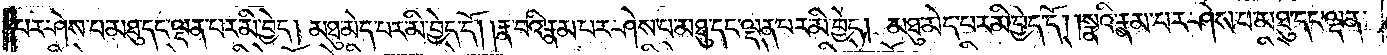པར་ཤེས་པ་མཐུ་དང་ལྡན་པར་མི་བྱེད། མཐུ་མེད་པར་མི་བྱེད་དོ། །རྣ་བའི་རྣམ་པར་ཤེས་པ་མཐུ་དང་ལྡན་པར་མི་བྱེད། མཐུ་མེད་པར་མི་བྱེད་དོ། །སྣའི་རྣམ་པར་ཤེས་པ་མཐུ་དང་ལྡན་
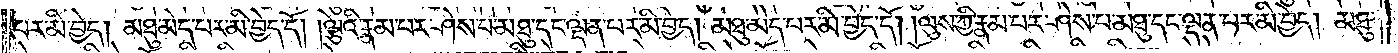པར་མི་བྱེད། མཐུ་མེད་པར་མི་བྱེད་དོ། །ལྕེའི་རྣམ་པར་ཤེས་པ་མཐུ་དང་ལྡན་པར་མི་བྱེད། མཐུ་མེད་པར་མི་བྱེད་དོ། །ལུས་ཀྱི་རྣམ་པར་ཤེས་པ་མཐུ་དང་ལྡན་པར་མི་བྱེད། མཐུ་
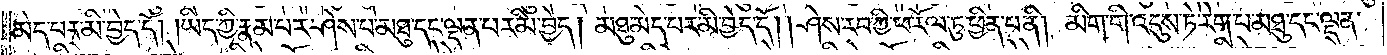མེད་པར་མི་བྱེད་དོ། །ཡིད་ཀྱི་རྣམ་པར་ཤེས་པ་མཐུ་དང་ལྡན་པར་མི་བྱེད། མཐུ་མེད་པར་མི་བྱེད་དོ། །ཤེས་རབ་ཀྱི་ཕ་རོལ་ཏུ་ཕྱིན་པ་ནི། མིག་གི་འདུས་ཏེ་རེག་པ་མཐུ་དང་ལྡན་
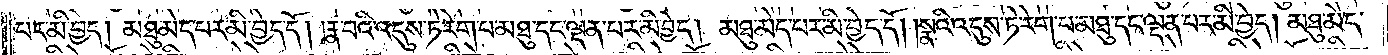པར་མི་བྱེད། མཐུ་མེད་པར་མི་བྱེད་དོ། །རྣ་བའི་འདུས་ཏེ་རེག་པ་མཐུ་དང་ལྡན་པར་མི་བྱེད། མཐུ་མེད་པར་མི་བྱེད་དོ། །སྣའི་འདུས་ཏེ་རེག་པ་མཐུ་དང་ལྡན་པར་མི་བྱེད། མཐུ་མེད་
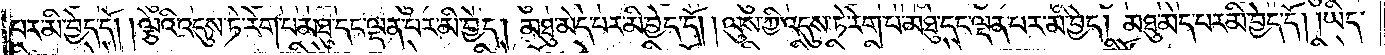པར་མི་བྱེད་དོ། །ལྕེའི་འདུས་ཏེ་རེག་པ་མཐུ་དང་ལྡན་པར་མི་བྱེད། མཐུ་མེད་པར་མི་བྱེད་དོ། །ལུས་ཀྱི་འདུས་ཏེ་རེག་པ་མཐུ་དང་ལྡན་པར་མི་བྱེད། མཐུ་མེད་པར་མི་བྱེད་དོ། །ཡིད་
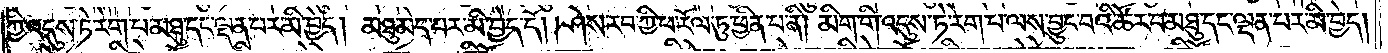ཀྱི་འདུས་ཏེ་རེག་པ་མཐུ་དང་ལྡན་པར་མི་བྱེད། མཐུ་མེད་པར་མི་བྱེད་དོ། །ཤེས་རབ་ཀྱི་ཕ་རོལ་ཏུ་ཕྱིན་པ་ནི། མིག་གི་འདུས་ཏེ་རེག་པ་ལས་བྱུང་བའི་ཚོར་བ་མཐུ་དང་ལྡན་པར་མི་བྱེད།
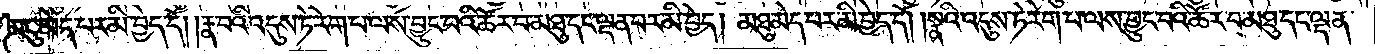མཐུ་མེད་པར་མི་བྱེད་དོ། །རྣ་བའི་འདུས་ཏེ་རེག་པ་ལས་བྱུང་བའི་ཚོར་བ་མཐུ་དང་ལྡན་པར་མི་བྱེད། མཐུ་མེད་པར་མི་བྱེད་དོ། །སྣའི་འདུས་ཏེ་རེག་པ་ལས་བྱུང་བའི་ཚོར་བ་མཐུ་དང་ལྡན་
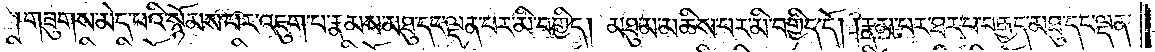གཟུགས་མེད་པའི་སྙོམས་པར་འཇུག་པ་རྣམས་མཐུ་དང་ལྡན་པར་མི་བགྱིད། མཐུ་མ་མཆིས་པར་མི་བགྱིད་དོ། རྣམ་པར་ཐར་པ་བརྒྱད་མཐུ་དང་ལྡན་
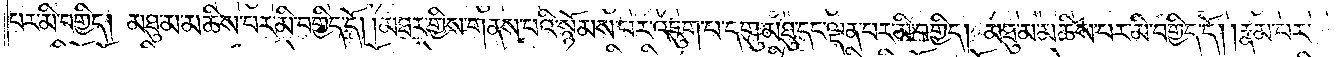པར་མོ་བགྱིད། མཐུ་མ་མཆིས་པར་མི་བགྱིད་དོ། མཐར་གྱི་གནས་པའི་སྙོམས་པར་འཇུག་པ་དགུ་མཐུ་དང་ལྡན་པར་མི་བགྱིད། མཐུ་མ་མཆིས་པར་མི་བགྱིད་དོ། །རྣམ་པར་
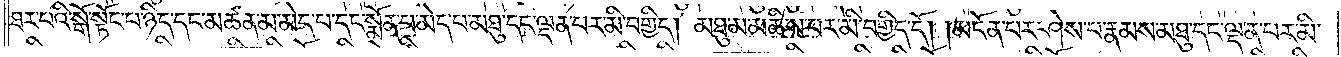ཐར་པའི་སྒོ་སྟོང་པ་ཉིད་དང་མཚན་མ་མེད་པ་དང་སྨོན་པ་མེད་པ་མཐུ་དང་ལྡན་པར་མི་བགྱིད། མཐུ་མ་མཆིས་པར་མི་བགྱིད་དོ། མངོན་པར་ཤེས་པ་རྣམས་མཐུ་དང་ལྡན་པར་མི་
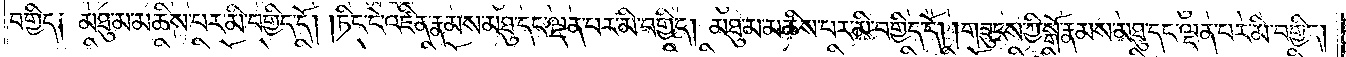བགྱིད༑ མཐུ་མ་མཆིས་པར་མི་བགྱིད་དོ། ཏིང་ངེ་འཛིན་རྣམས་མཐུ་དང་ལྡན་པར་མི་བགྱིད། མཐུ་མ་མཆིས་པར་མི་བགྱིད་དོ། གཟུངས་ཀྱི་སྒོ་རྣམས་མཐུ་དང་ལྡན་པར་མི་བགྱིད།
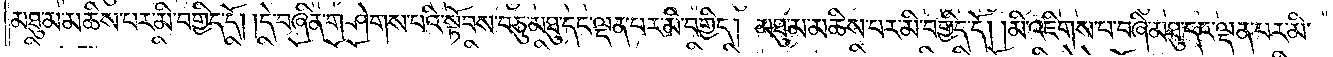མཐུ་མ་མཆིས་པར་མི་བགྱིད་དོ། དེ་བཞིན་གཤེགས་པའི་སྟོབས་བཅུ་མཐུ་དང་ལྡན་པར་མི་བགྱིད། མཐུ་མ་མཆིས་པེ་མི་བགྱིད་དོ། མི་འཇིགས་པ་བཞི་མཐུ་དང་ལྡན་པར་མི་
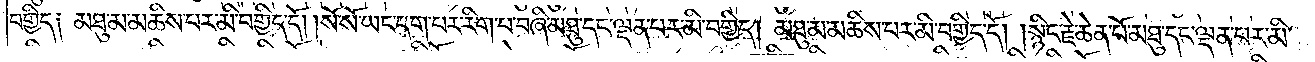བགྱིད༑ མཐུ་མ་མཆིས་པར་མི་བགྱིད་དོ། སོ་སོ་ཡང་དག་པར་རིག་པ་བཞི་མཐུ་དང་ལྡན་པར་མི་བགྱིད། མཐུ་མ་མཆིས་པར་མི་བགྱིད་དོ། སྙིང་རྗེ་ཆེན་པོ་མཐུ་དང་ལྡན་པར་མི་
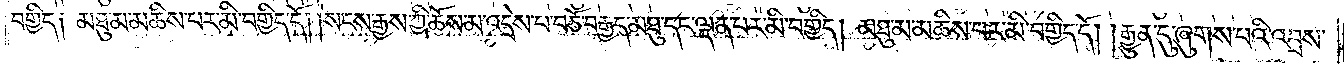བགྱིད༑ མཐུ་མ་མཆིས་པར་མི་བགྱིད་དོ། སངས་རྒྱས་ཀྱི་ཆོས་མ་འདྲེས་པ་བཅོ་བརྒྱད་མཐུ་དང་ལྡན་པར་མི་བགྱིད། མཐུ་མ་མཆིས་པར་མི་བགྱིད་དོ། རྒྱུན་དུ་ཞུགས་པའི་འབྲས་
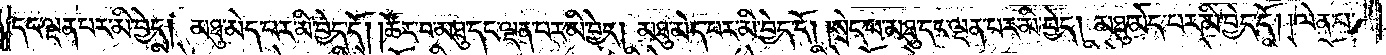དང་ལྡན་པར་མི་བྱེད། མཐུ་མེད་པར་མི་བྱེད་དོ། །ཚོར་བ་མཐུ་དང་ལྡན་པར་མི་བྱེད། མཐུ་མེད་པར་མི་བྱེད་དོ། །སྲེད་པ་མཐུ་དང་ལྡན་པར་མི་བྱེད། མཐུ་མེད་པར་མི་བྱེད་དོ། །ལེན་པ་
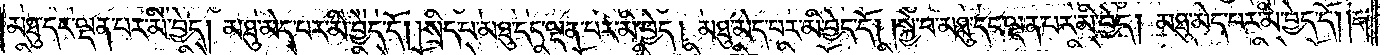མཐུ་དང་ལྡན་པར་མི་བྱེད། མཐུ་མེད་པར་མི་བྱེད་དོ། །སྲིད་པ་མཐུ་དང་ལྡན་པར་མི་བྱེད། མཐུ་མེད་པར་མི་བྱེད་དོ། །སྐྱེ་བ་མཐུ་དང་ལྡན་པར་མི་བྱེད། མཐུ་མེད་པར་མི་བྱེད་དོ། །རྒ་
